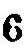6
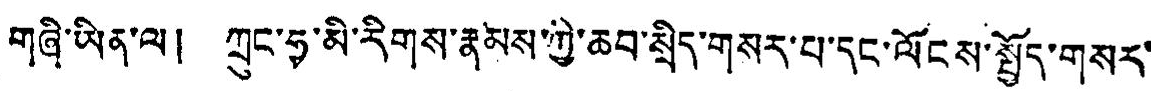གཞི་ཡིན་ལ། ཀྲུང་ཧྭ་མི་རིགས་རྣམས་ཀྱི་ཆབ་སྲིད་གསར་པ་དང་ལོངས་སྤྱོད་གསར་
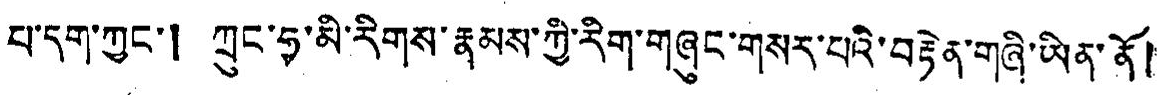པ་དག་ཀྱང་། ཀྲུང་ཧྭ་མི་རིགས་རྣམས་ཀྱི་རིག་གཞུང་གསར་པའི་བརྟེན་གཞི་ཡིན་ནོ།
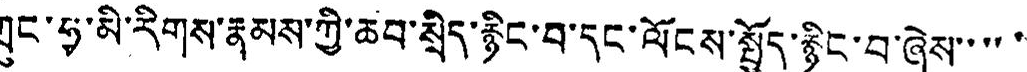ཀྲུང་ཧྭ་མི་རིགས་རྣམས་ཀྱི་ཆབ་སྲིད་རྙིང་བ་དང་ལོངས་སྤྱོད་རྙིང་བ་ཞེས་་་་་
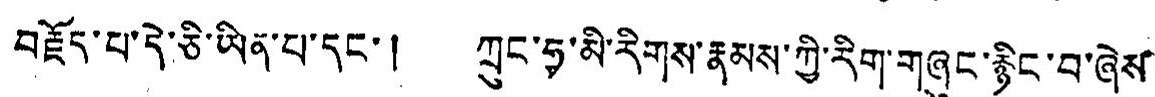བརྗོད་པ་དེ་ཅི་ཡིན་པ་དང་། ཀྲུང་ཧྭ་མི་རིགས་རྣམས་ཀྱི་རིག་གཞུང་རྙིང་བ་ཞེས་
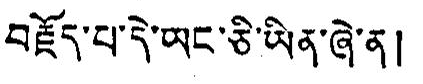བརྗོད་པ་དེ་ཡང་ཅི་ཡིན་ཞེ་ན།
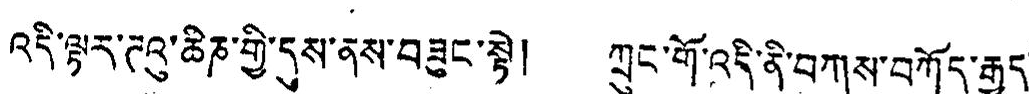འདི་ལྟར་ཊའུ་ཆིཎ་གྱི་དུས་ནས་བཟུང་སྟེ། ཀྲུང་གོ་འདི་ནི་བཀས་བཀོད་རྒྱུད་
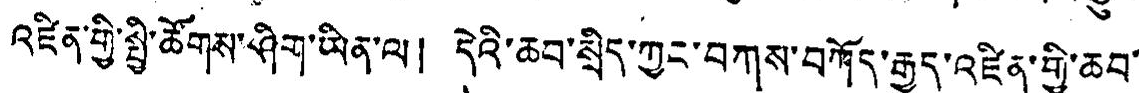འཛིན་གྱི་སྤྱི་ཚོགས་ཤིག་ཡིན་ལ། དེའི་ཆབ་སྲིད་ཀྱང་བཀས་བཀོད་རྒྱུད་འཛིན་གྱི་ཆབ་་
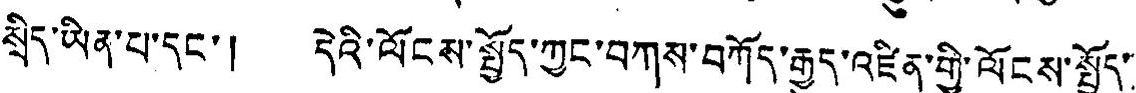སྲིད་ཡིན་པ་དང་། དེའི་ལོངས་སྤྱོད་ཀྱང་བཀས་བཀོད་རྒྱུད་འཛིན་གྱི་ལོངས་སྤྱོད་
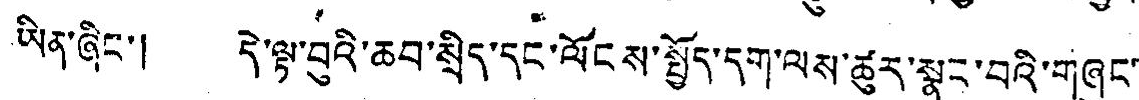ཡིན་ཞིང་། དེ་ལྟ་བུའི་ཆབ་སྲིད་དང་ལོངས་སྤྲོད་དག་ལས་ཚུར་སྣང་བའི་གཞུང་
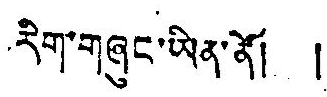རིག་གཞུང་ཡིན་མོ། །
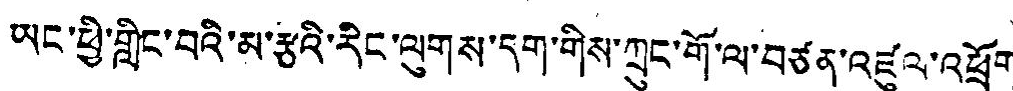ཡང་ཕྱི་གླིང་བའི་མ་རྩའི་རིང་ལུགས་དག་གིས་ཀྲུང་གོ་ལ་བཙན་འཛུལ་འཕྲོག་
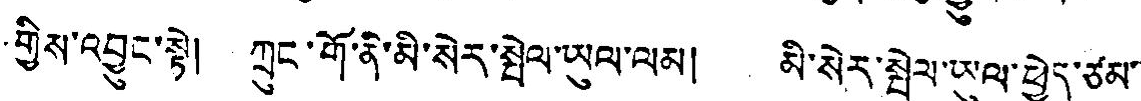གྱིས་འབྱུང་སྟེ། ཀྲུང་གོ་ནི་མི་སེར་སྤེལ་ཡུལ་ལམ། མི་སེར་སྤེལ་ཡུལ་ཕྱེད་ཙམ་
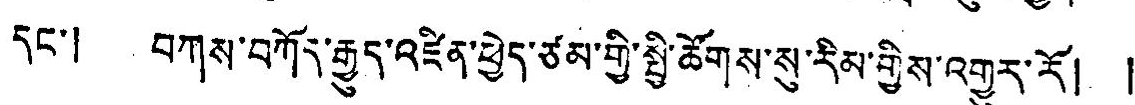དང་། བཀས་བཀོར་རྒྱུད་འཛིན་ཕྱེད་ཙམ་གྱི་སྤྱི་ཚོགས་སུ་རིམ་གྱིས་འགྱུར་རོ། །
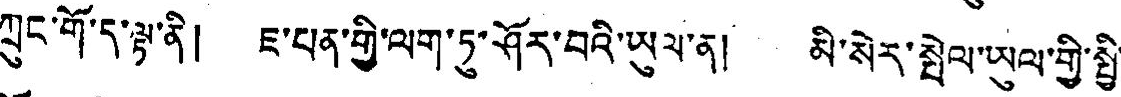ཀྲུང་གོ་ད་ལྟ་ནི། ཇ་པན་གྱི་ལག་ཏུ་ཤོར་བའི་ཡུལ་ན། མི་སེར་སྤེལ་ཡུལ་གྱི་སྤྱི་
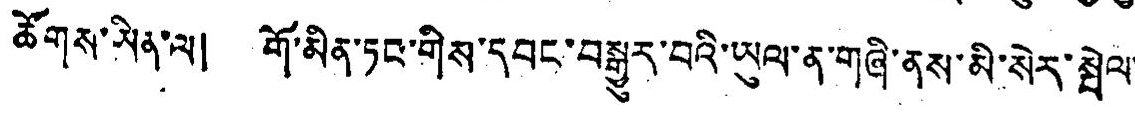ཚོགས་ཡིན་ལ། གོ་མིན་ཏང་གིས་དབང་བསྒྱུར་བའི་ཡུལ་ན་གཞི་ནས་མི་སེར་སྤེལ་
